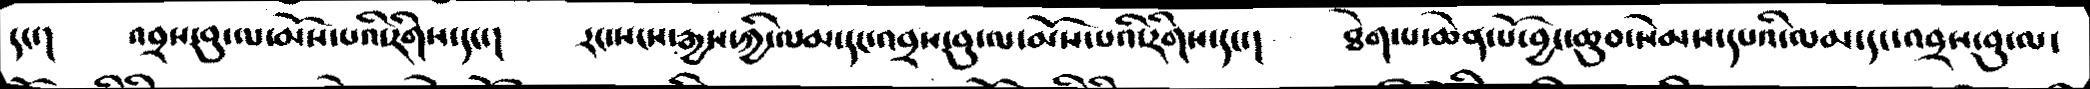དང་།   འབྲས་བུ་ལ་མོས་པའི་རིགས་དང་།   རང་སངས་རྒྱས་ཀྱི་ལམ་དང་འབྲས་བུ་ལ་མོས་པའི་རིགས་དང་།   ཐེག་པ་ཆེན་པོ་བྱང་ཆུབ་སེམས་དཔའི་ལམ་དང་འབྲས་བུ་ལ་
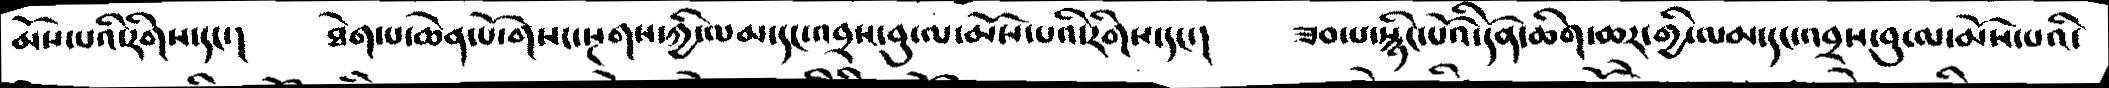མོས་པའི་རིགས་དང་།   ཐེག་པ་ཆེན་པོ་གསང་སྔགས་ཀྱི་ལམ་དང་འབྲས་བུ་ལ་མོས་པའི་རིགས་དང་།   ཟབ་པ་སྙིང་པོའི་དོན་ཆིག་ཆར་གྱི་ལམ་དང་འབྲས་བུ་ལ་མོས་པའི་
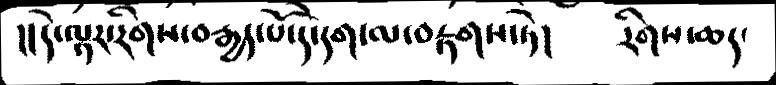།།དེ་ལྟར་རིགས་བརྒྱད་པོ་དེ་དག་ལ་བརྟགས་ཏེ།     རིགས་ཆད་
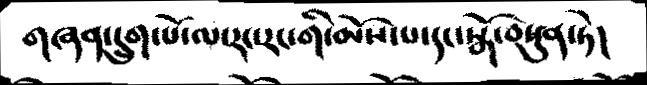གཞན་དྲུག་པོ་ལ་རང་རང་གི་མོས་པ་དང་སྒོ་བསྟུན་ཏེ།
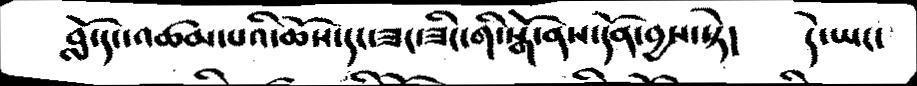བློ་དང་འཚམ་པའི་ཆོས་དང་ཟང་ཟིང་གི་སྒོ་ནས་དོན་བྱས་སྟེ།    དེ་ཡང་
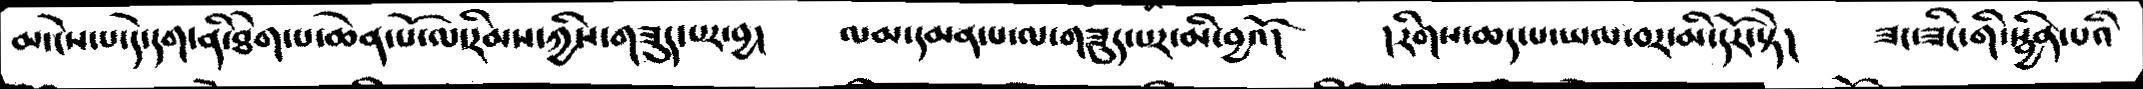མ་ངེས་པ་དེ་དག་ནི་ཐེག་པ་ཆེན་པོ་ལ་རིམས་ཀྱིས་གཟུད་པར་བྱ།    ལམ་དམན་པ་ལ་གཟུད་པར་མི་བྱའོ།    །རིགས་ཆད་པ་ཡལ་བར་མི་དོར་སྟེ།   ཟང་ཟིང་གི་སྦྱིན་པའི
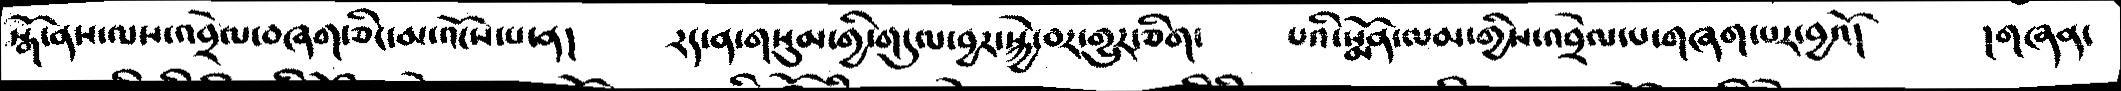སྒོ་ནས་ལས་འབྲེལ་བཞག་ཅིང་མ་འོངས་པ་ན།    རད་ན་གསུམ་གྱི་གདུལ་བྱར་སྐྱེ་བར་གྱུར་ཅིག་     པའི་སྨོན་ལམ་གྱིས་འབྲེལ་པ་གཞག་པར་བྱའོ།    །གཞན་
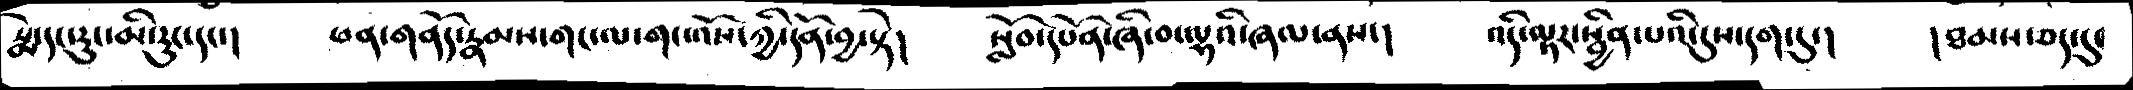སྨེ་དང་རུང་མི་རུང་དང་།    ཕན་གནོད་རྣམས་གང་ལ་གང་འོས་ཀྱི་དོན་བྱ་སྟེ།    སློབ་དཔོན་ཞི་བ་ལྷའི་ཞལ་ནས་།    འདི་ལྟར་སྦྱིན་པའི་དུས་དག་དུ་།    །ཐམས་ཅད་དུ་
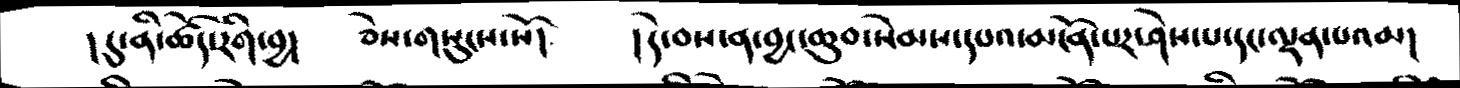།དུ་ནི་ཚོད་རིག་བྱ།   ཅེས་གསུངས་སོ།    །དེ་བས་ན་བྱ་ཆུབ་སེམས་དཔའ་མངོན་པར་ཤེས་པ་དང་ལྡན་པའམ།
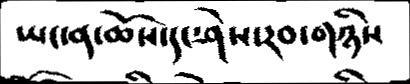ཡང་ན་ཆོས་དང་ཤེས་རབ་གཉིས
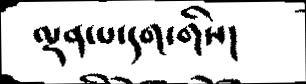ལྡན་པ་དག་གིས།
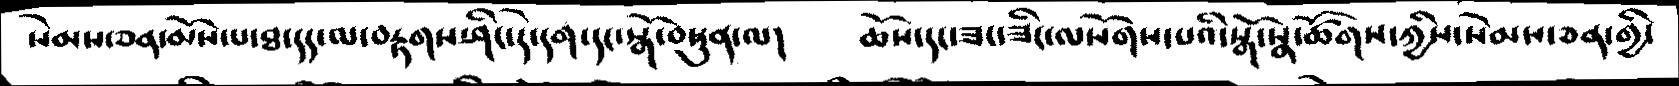སེམས་ཅན་མོས་པ་ཐ་དད་ལ་བརྟགས་ཤིང་དེ་དག་དང་སྒོ་བསྟུན་ལ།     ཆོས་དང་ཟང་ཟིང་ལསོགས་པའི་སྒོ་སྣ་ཚོགས་ཀྱིས་སེམས་ཅན་གྱི་
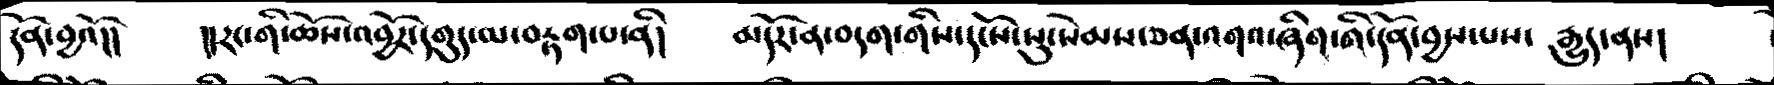དོན་བྱའོ།།     །།རང་གི་ཆོས་འབྱོར་དགུད་ལ་བརྟག་པ་ནི།    མདོར་ན་བདག་གིས་དངོས་སུ་སེམས་ཅན་འགའ་ཞིག་གི་དོན་བྱས་པས་  རྒྱུད་ནས།
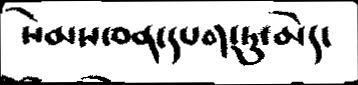སེམས་ཅན་དཔག་ཏུ་མེད་
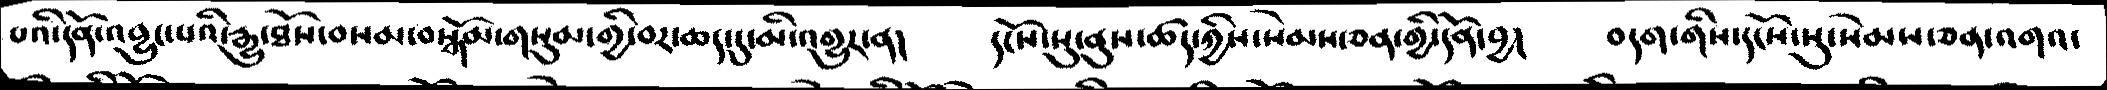པའི་དོན་འབྱུང་པའི་རྒྱུ་ཐོས་བསམ་བསྒོམ་གསུམ་གྱི་བར་ཆད་དུ་མི་འགྱུར་ན།    དངོས་སུ་ནུས་ཚད་ཀྱིས་སེམས་ཅན་གྱི་དོན་བྱ།    བདག་གིས་དངོས་སུ་སེམས་ཅན་འགའ་
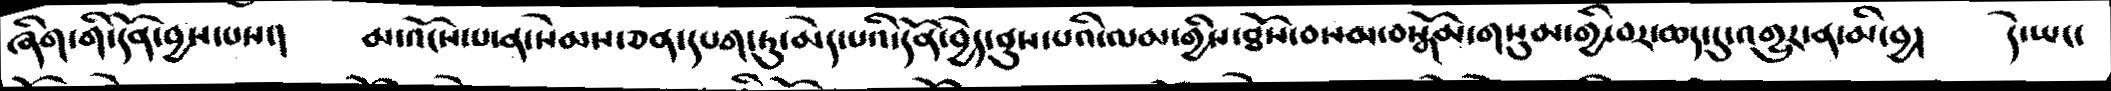ཞིག་གི་དོན་བྱས་པས་།   མ་འོངས་པ་ན་སེམས་ཅན་དཔག་ཏུ་མེད་པའི་དོན་བྱེད་ནུས་པའི་ལམ་གྱིས་ཐོས་བསམ་བསྒོམ་གསུམ་གྱི་བར་ཆད་དུ་འགྱུར་ན་མི་བྱ།   དེ་ཡང་
